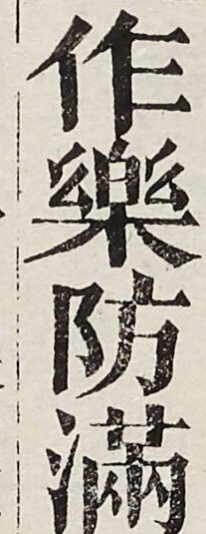作樂防滿
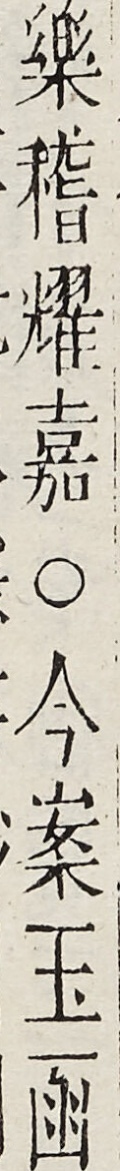樂稽耀嘉○今案玉函
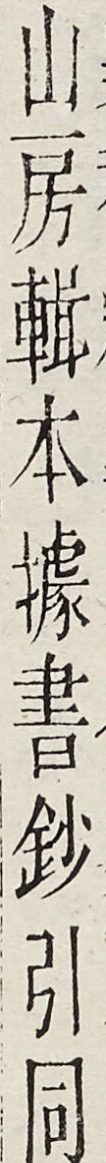山房輯本據書鈔引同
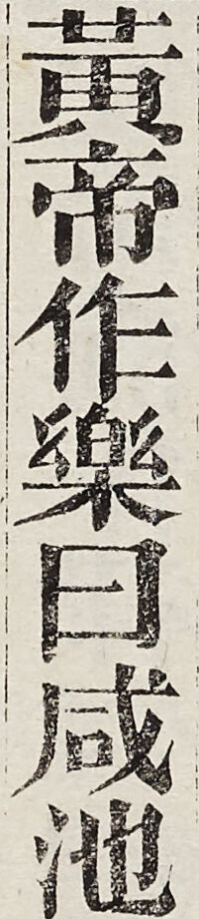黃帝作樂曰咸池
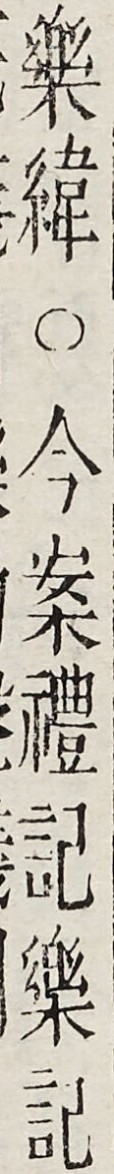槳緯○今案禮記樂記
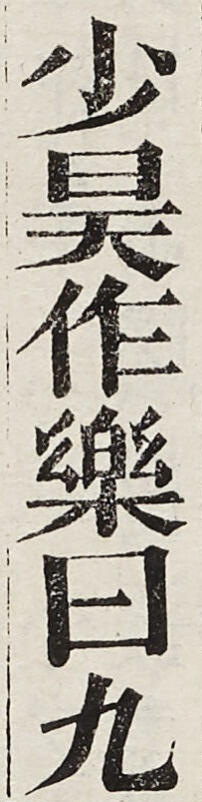少昊作樂曰九
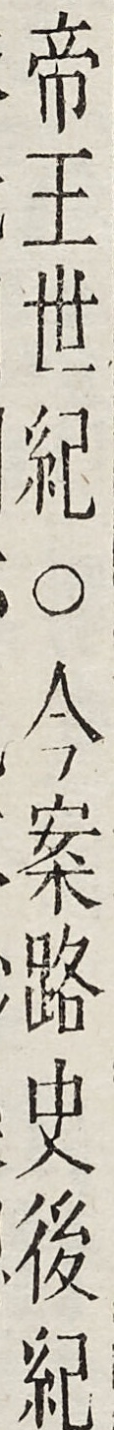帝王世紀○今案路史後紀
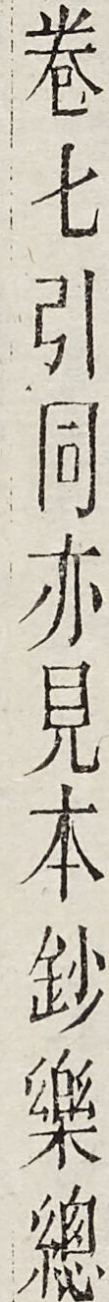卷七引同亦見本鈔樂總
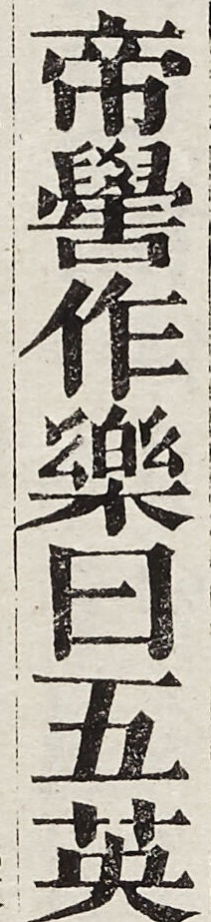帝嚳作樂曰五英
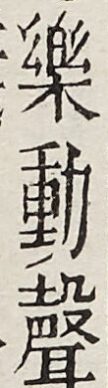樂動聲
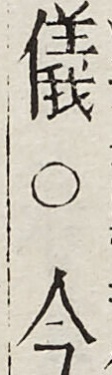儀○今
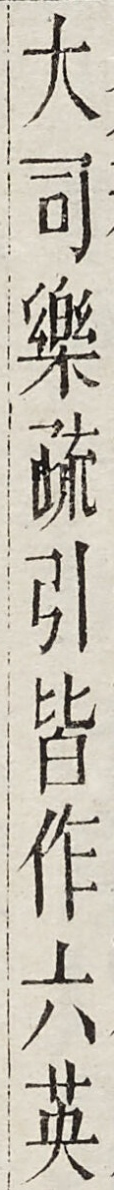大司樂疏引皆作六英
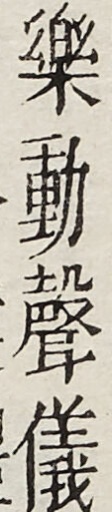樂動聲儀
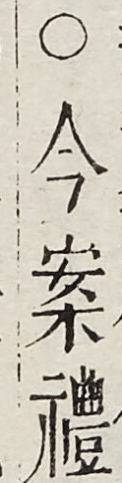○今案禮
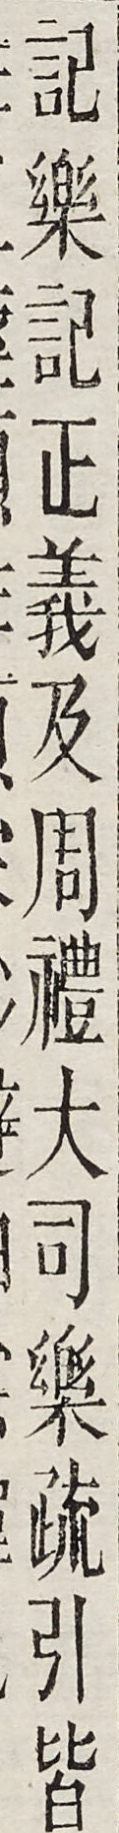記樂記正義及周禮大司樂疏引皆
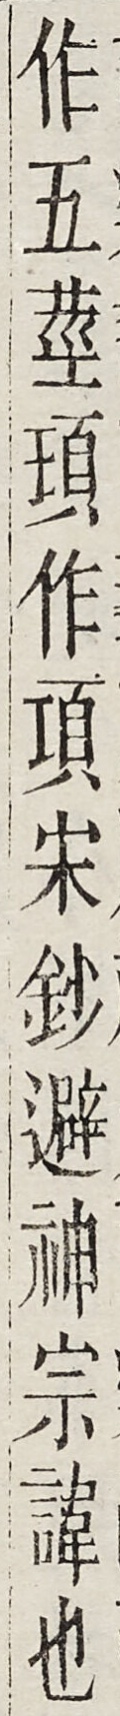作五莖頊作項宋避神宗諱也
